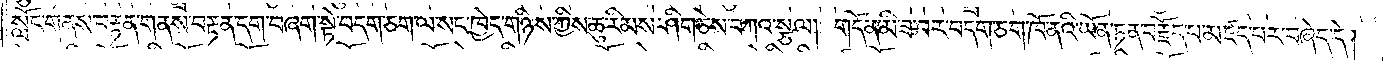སློང་གནས་བརྟན་གནས་བརྟན་དག་བཞག་སྟེ་བདག་ཅག་ལ་སང་ཁྱེད་གཉིས་ཀྱིས་ཆུ་རིམས་ཤིག་ཅེས་བཀའ་སྩལ། གདོན་མི་ཟ་བར་བདག་ཅག་ཁོ་ནའི་ཡོན་ཏན་བརྗོད་པ་མཛད་པར་བཞེད་དེ།
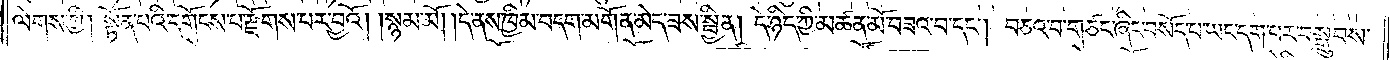ལེགས་ཀྱི། སྟོན་པའི་དགོངས་པ་རྫོགས་པར་བྱའོ། །སྙམ་མོ། །དེ་ནས་ཁྱིམ་བདག་མགོན་མེད་ཟས་སྦྱིན། དེ་ཉིད་ཀྱི་མཚན་མོ་བཟའ་བ་དང༌། བཅའ་བ་གཙང་ཞིང་བསོད་པ་ཡང་དག་པར་བསྒྲུབས་
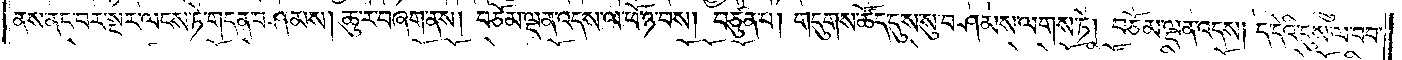ནས་ནང་བར་སྔར་ལངས་ཏེ་གདན་བཤམས། ཆུ་ར་བཞག་ནས། བཅོམ་ལྡན་འདས་ལ་ཕོ་ཉ་བས། བཙུན་པ། གདུགས་ཚོད་དུ་ས་སུ་བཤམས་ལགས་ཏེ། བཅོམ་ལྡན་འདས། ད་དེའི་དུས་ལ་བབ་
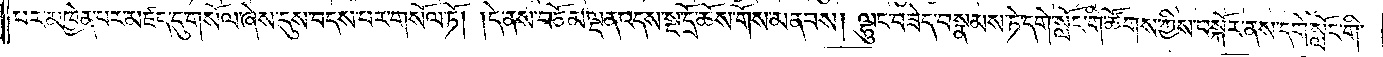པར་མཁྱེན་པར་མཛད་དུ་གསོལ་ཞེས་དུས་བདས་པར་གསོལ་ཏོ། །དེ་ནས་བཅོམ་ལྡན་འདས་སྔ་དྲོ་ཆོས་གོས་མནམས། ལྷུང་བཟེད་བསྣམས་ཏེ་དགེ་སློང་གི་ཚོགས་ཀྱིས་བསྐོར་ནས་དགེ་སློང་གི་
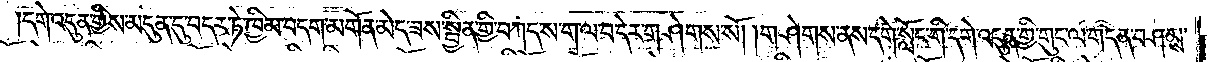།དགེ་འདུན་གྱིས་མདུན་དུ་བདར་ཏེ་ཁྱིམ་བདག་མགོན་མེད་ཟས་སྦྱིན་གྱི་བཀད་ས་ག་ལ་བ་དེར་གཤེགས་སོ། །གཤེགས་ནས་དགེ་སློང་གི་དགེ་འདུན་གྱི་གུང་ལ་གདན་བཤམས་
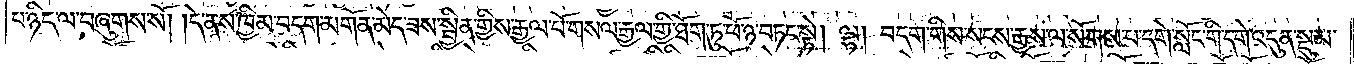པ་ཉིད་ལ་བཞུགས་སོ། །དེ་ནས་ཁྱིམ་བདག་མགོན་མེད་ཟས་སྦྱིན་གྱིས་རྒྱལ་པོ་གསལ་རྒྱལ་གྱི་ཐོག་ཏུ་ཕོ་ཉ་བཏང་སྟེ། ལྷ། བདག་གིས་སངས་རྒྱས་ལ་སོགས་པ་དགེ་སློང་གི་དགེ་འདུན་སྡུམ་
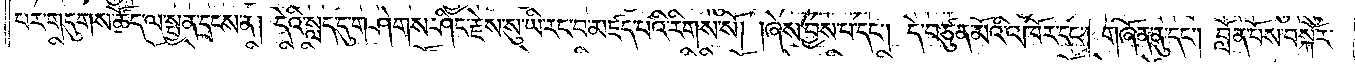པར་གདུགས་ཚོད་ལ་སྤྱན་དྲངས་ན། དེའི་སླད་དུ་གཤེགས་ཤིང་རྗེས་སུ་ཡི་རང་བ་མཛད་པའི་རིགས་སོ། །ཞེས་བྱས་པ་དང༌། དེ་བཙུན་མོའི་འཁོར་དང༌། གཞོན་ནུ་དང༌། བློན་པོས་བསྐོར་
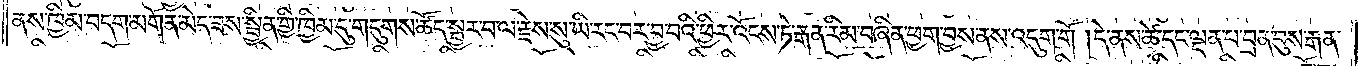ནས་ཁྱིམ་བདག་མགོན་མེད་ཟས་སྦྱིན་གྱི་ཁྱིམ་དུ་གདུགས་ཚོད་སྦྱར་བ་ལ་རྗེས་སུ་ཡི་རང་བར་བྱ་བའི་ཕྱིར་འོངས་ཏེ་རྒན་རིམ་བཞིན་ཕྱག་བྱས་ནས་འདུག་གོ། །དེ་ནས་ཚེ་དང་ལྡན་པ་བྲན་བུས་རྒན་
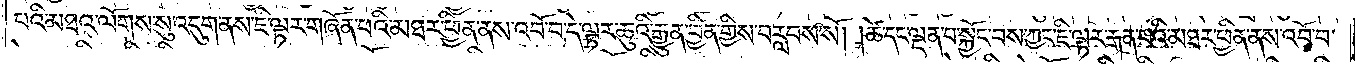པའི་མཐའ་ལོགས་སུ་འདུག་ནས་ཇི་ལྟར་གཞོན་པའི་མཐར་ཕྱིན་ནས་འབོ་བ་དེ་ལྟར་ཆུའི་རྒྱུན་བྱིན་གྱིས་བརླབས་སོ། །ཚེ་དང་ལྡན་པ་སྐྱོང་བས་ཀྱང་ཇི་ལྟར་རྒན་པའི་མཐར་ཕྱིན་ནས་འབོ་བ་
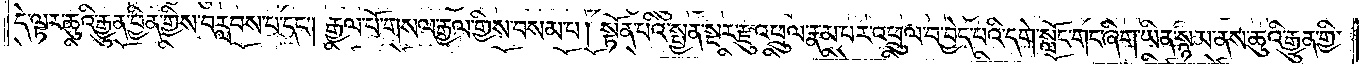དེ་ལྟར་ཆུའི་རྒྱུན་བྱིན་གྱིས་བརླབས་པ་དང༌། རྒྱལ་པོ་གསལ་རྒྱལ་གྱིས་བསམ་པ། སྟོན་པའི་སྤྱན་སྔར་རྫུ་འཕྲུལ་རྣམ་པར་འཕྲུལ་པ་བྱེད་པའི་དགེ་སློང་གང་ཞིག་ཡིན་སྙམ་ནས་ཆུའི་རྒྱུན་གྱི་
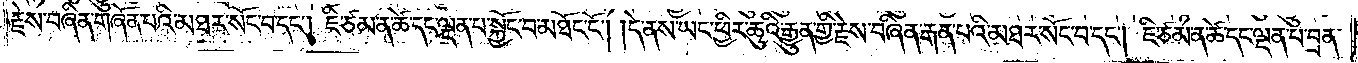རྗེས་བཞིན་གཞོན་པའི་མཐར་སོང་བ་དང༌། ཇི་ཙམ་ན་ཚེ་དང་ལྡན་པ་སྐྱོང་བ་མཐོང་ངོ༌། །དེ་ནས་ཡང་ཕྱིར་ཆུའི་རྒྱུན་གྱི་རྗེས་བཞིན་རྒན་པའི་མཐར་སོང་བ་དང༌། ཇི་ཙམ་ན་ཚེ་དང་ལྡན་པ་བྲན་
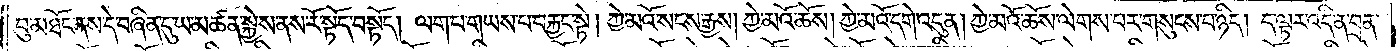བུ་མཐོང་ནས་དེ་བཞིན་དུ་ཡ་མཚན་སྐྱེས་ནས་རོ་སྟོད་བསྟོད། ལག་པ་གཡས་པ་བརྐྱང་སྟེ། ཀྱེ་མའོ་སངས་རྒྱས། ཀྱེ་མའོ་ཆོས། ཀྱེ་མའོ་དགེ་འདུན། ཀྱེ་མའོ་ཆོས་ལེགས་པར་གསུངས་པ་ཉིད། ད་ལྟར་འདི་ན་བྲན་
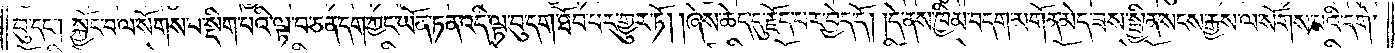བུ་དང༌། སྐྱོང་བ་ལ་སོགས་པ་སྡིག་པའི་ལྟ་བ་ཅན་དག་ཀྱང་ཡོན་ཏན་འདི་ལྟ་བུ་དག་ཐོབ་པར་གྱུར་ཏོ། །ཞེས་ཆེད་དུ་རྗོད་པར་བྱེད་དོ། །དེ་ནས་ཁྱིམ་བདག་མགོན་མེད་ཟས་སྦྱིན་སངས་རྒྱས་ལ་སོགས་པའི་དགེ་
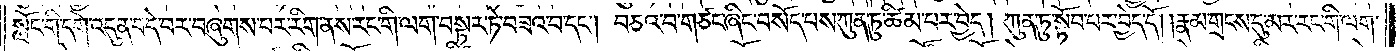སློང་གི་དགེ་འདུན་བདེ་བར་བཞུགས་པར་རིག་ནས་རང་གི་ལག་བསྟར་ཏེ་བཟའ་བ་དང༌། བཅའ་བ་གཙང་ཞིང་བསོད་པས་ཀུན་ཏུ་ཚིམ་པར་བྱེད། ཀུན་ཏུ་སྟོབ་པར་བྱེད་དོ། །རྣམ་གྲངས་དུ་མར་རང་གི་ལག་
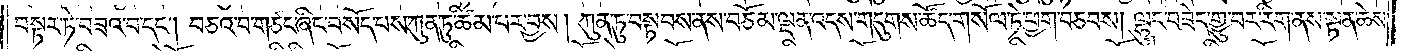བསྟར་ཏེ་བཟའ་བ་དང༌། བཅའ་བ་གཙང་ཞིང་བསོད་པས་ཀུན་ཏུ་ཚིམ་པར་བྱས། ཀུན་ཏུ་བསྟབས་ནས་བཅོམ་ལྡན་འདས་གདུགས་ཚོད་གསོལ་ཏེ་ཕྱག་བཅབས། ལྷུང་བཟེད་གྱུ་བར་རིག་ནས་སྟན་ཆེས་
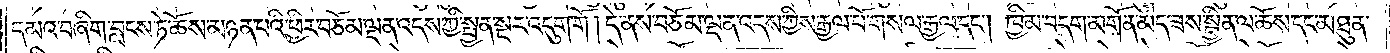དམའ་བ་ཞིག་བླངས་ཏེ་ཆོས་མཉན་པའི་ཕྱིར་བཅོམ་ལྡན་འདས་ཀྱི་སྤྱན་སྔར་འདུག་གོ །དེ་ནས་བཅོམ་ལྡན་འདས་ཀྱིས་རྒྱལ་པོ་གསལ་རྒྱལ་དང༌། ཁྱིམ་བདག་མགོན་མེད་ཟས་སྦྱིན་ལ་ཆོས་དང་མཐུན་
